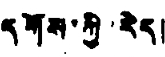དགོས་ཀྱི་རེད།
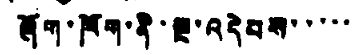ཞོག་ཁོག་ནི་སྔ་འདེབས་་་་་་
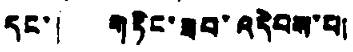དང་། གཏིང་ཟབ་འདེབས་པ།
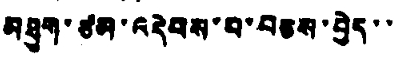མཐུག་ཙམ་འདེབས་པ་བཅས་བྱེད་་
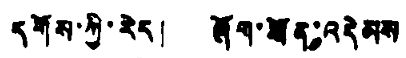དགོས་ཀྱི་རེད། ཞོག་ཐོན་འདེམས
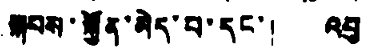སྐབས་སྐྱོན་མེད་པ་དང་། འབུ
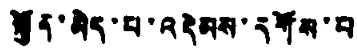སྐྱོན་མེད་པ་འདེམས་དགོས་པ
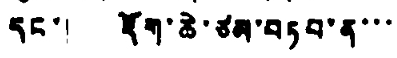དང་། རྡོག་ཆེ་ཙམ་བཏབ་ན་་་
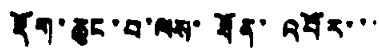རྡོག་ཆུང་བ་ལས་ཐོན་འབོར་་་་
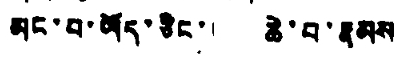མང་བ་ཡོད་ཅིང་། ཆེ་བ་རྣམས
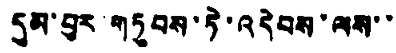དུམ་བུར་གཏུབས་ཏེ་འདེབས་ལས་་
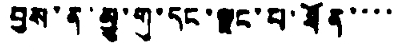བྱས་ན་མྱུ་གུ་དང་ལྗང་པ་ཐོན་་་་
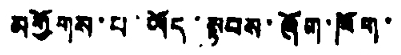མགྱོགས་པ་ཡོད་སྟབས་ཞོག་ཁོག་
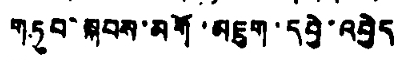གཏུབ་སྐབས་མགོ་མཇུག་དབྱེ་འབྱེད
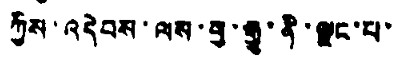ཀྱིས་འདེབས་ལས་བྱ་རྒྱུ་ནི་ལྗང་པ་
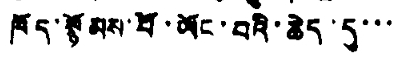ཁོད་སྙོམས་པོ་ཡོང་བའི་ཆེད་དུ་་་
